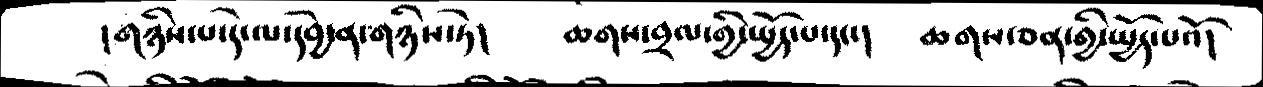།གཉིས་པ་དེ་ལ་དབྱེ་ན་གཉིས་ཏེ།   ཆགས་བྲལ་གྱི་སྤྱོད་པ་དང་།   ཆགས་ཅན་གྱི་སྤྱོད་པའོ།
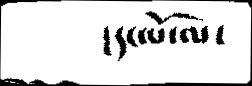།དང་པོ་ལ་
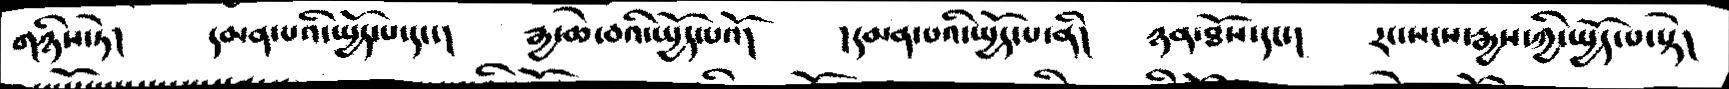གཉིས་ཏེ།   དམན་པའི་སྤྱོད་པ་དང་།   རྒྱ་ཆེ་བའི་སྤྱོད་པའོ།  །དམན་པའི་སྤྱོད་པ་ནི།  ཉན་ཐོས་དང་།   རང་སངས་རྒྱས་ཀྱི་སྤྱོད་པ་སྟེ།
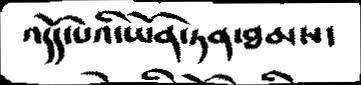འདོད་པའི་ཡོན་ཏན་ཐམས་
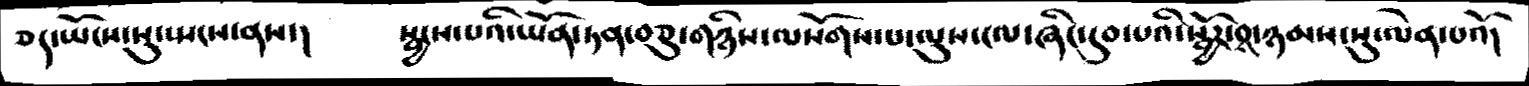ཅད་ཡོངས་སུ་སྤངས་ནས་།   སྦྱངས་པའི་ཡོན་ཏན་བཅུ་གཉིས་ལསོགས་པ་ལུས་ངལ་ཞིང་དུབ་པའི་སྦྱོར་བས་ཉམས་སུ་ལེན་པའོ།
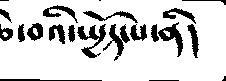ཆེ་བའི་སྤྱོད་པ་ནི།
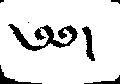༄༅།
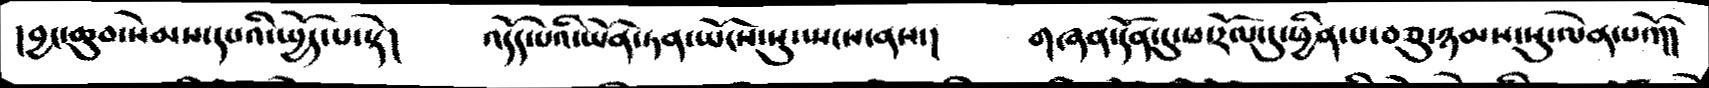།བྱང་ཆུབ་སེམས་དཔའི་སྤྱོད་པ་སྟེ།   འདོད་པའི་ཡོན་ཏན་ཡོངས་སུ་སངས་ནས་།  གཞན་དོན་དུ་ཕ་རོལ་དུ་ཕྱིན་པ་བཅུ་ཉམས་སུ་ལེན་པའོ།།
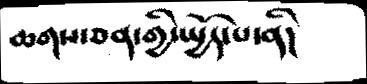ཆགས་ཅན་གྱི་སྤྱོད་པ་ནི།
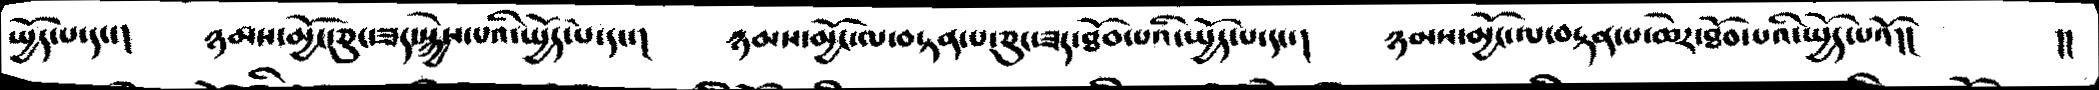སྤྱོད་པ་དང་།   ཉམས་མྱོང་ཅུང་ཟད་སྐྱེས་པའི་སྤྱོད་པ་དང་།   ཉམས་མྱོང་ལ་བརྟན་པ་ཅུང་ཟད་ཐོབ་པའི་སྤྱོད་པ་དང་།   ཉམས་མྱོང་ལ་བརྟན་པ་ཆེར་ཐོབ་པའི་སྤྱོད་པའོ།།    །།
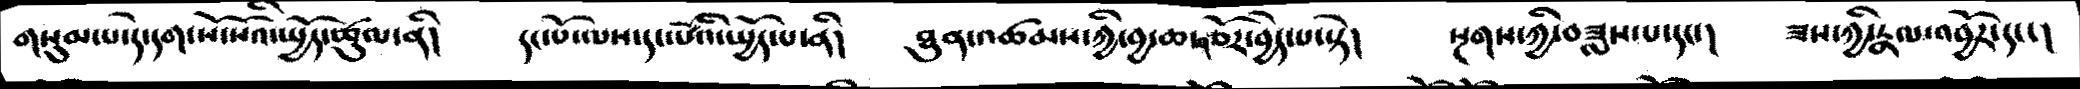གསུམ་པ་དེ་དག་སོ་སོའི་སྤྱོད་ཚུལ་ནི།   དང་པོ་ལས་དང་པོའི་སྤྱོད་པ་ནི།  ཐུན་འཚམས་ཀྱི་བྱ་ཆ་གཙོར་བྱེད་པ་སྟེ།   སྔགས་ཀྱི་བཟླས་པ་དང་།  ཟས་ཀྱི་རྣལ་འབྱོར་དང་།
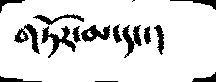གཏོར་མ་དང་།
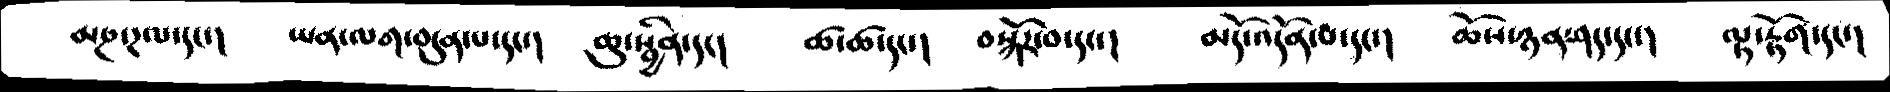མཎ་ཌལ་དང་།  ཡན་ལག་བདུན་པ་དང་།   ཆུ་སྦྱིན་དང་།   ཚ་ཚ་དང་།  བསྐོར་བ་དང་།   མདོ་འདོན་པ་དང་།   ཆོས་ཉན་ཤད་དང་།  ལྟ་རྟོག་དང་།
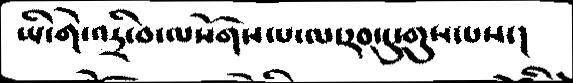ཡི་གེ་འདྲི་བ་ལསོགས་པ་ལ་རབ་དུ་གུས་པས་།
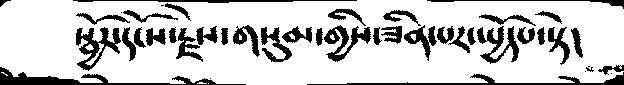སྦྱོར་དངོས་རྗེས་གསུམ་གྱིས་ཟིན་པར་སྤྱོདཔ་སྟེ།
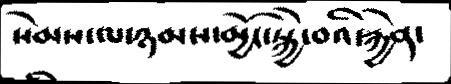སེམས་ལ་ཉམས་མྱོང་སྐྱེ་བའི་རྐྱེན་
